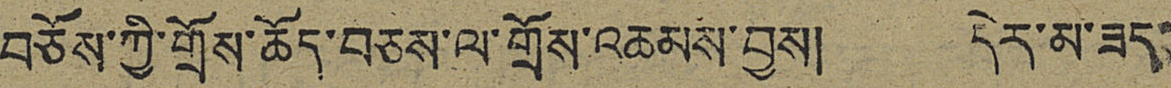བཅོས་ཀྱི་གྲོས་ཆོད་བཅས་ལ་གྲོས་འཆམས་བྱས། དེར་མ་ཟད་
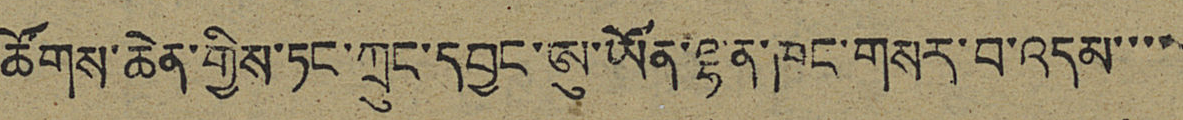ཚོགས་ཆེན་གྱིས་ཏང་ཀྲུང་དབྱང་ཨུ་ཡོན་ལྷན་ཁང་གསར་བ་འདམ་་་་
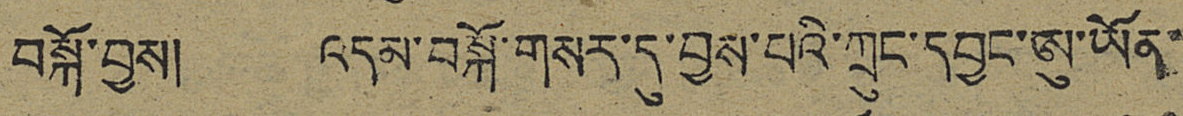བསྐོ་བྱས། འདམ་བསྐོ་གསར་དུ་བྱས་པའི་ཀྲུང་དབྱང་ཨུ་ཡོན་
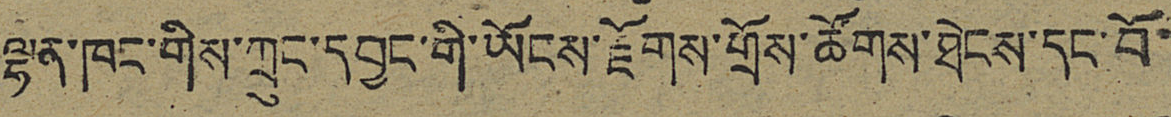ལྷན་ཁང་གིས་ཀྲུང་དབྱང་གི་ཡོངས་རྫོགས་གྲོས་ཚོགས་ཐེངས་དང་བོ་
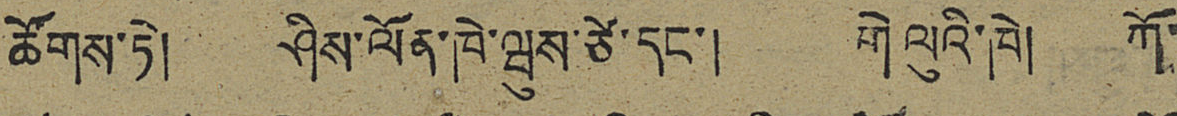ཚོགས་ཏེ། ཤིས་ལོན་ཁེ་ཝུས་ཙེ་དང་། གེ ལུའི་ཁེ། ཀོ་
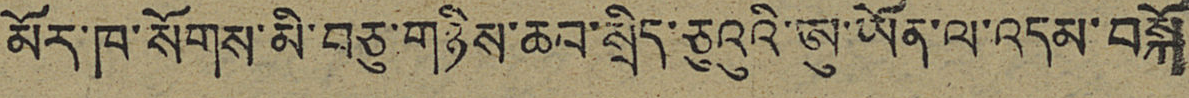མོར་ཁ་སོགས་མི་བཅུ་གཉིས་ཆབ་སྲིད་ཅུའུའི་ཨུ་ཡོན་ལ་འདམ་བསྐོ
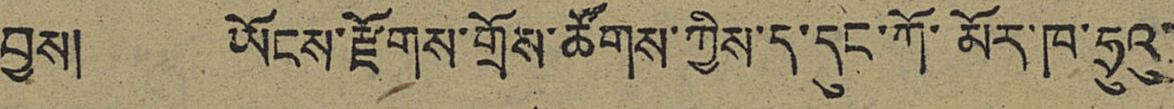བྱས། ཡོངས་རྫོགས་གྲོས་ཚོགས་ཀྱིས་ད་དུང་ཀོ་མོར་ཁ་ཧྲུའུ་
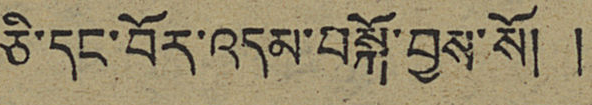ཅི་དང་བོར་འདམ་བསྐོ་བྱས་སོ། །
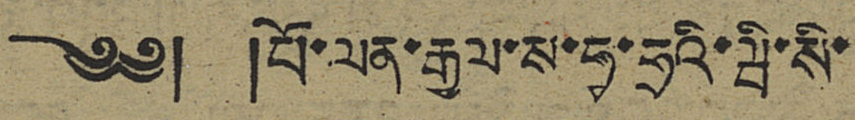༄༅། །པོ་ལན་རྒྱལ་ས་ཧྭ་ཧྲའི་ཝི་སི་
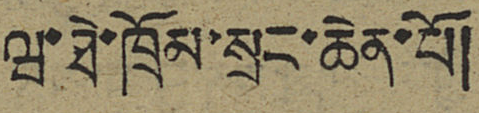ཝ་ཐེ་ཁྲོམ་སྲང་ཆེན་པོ།
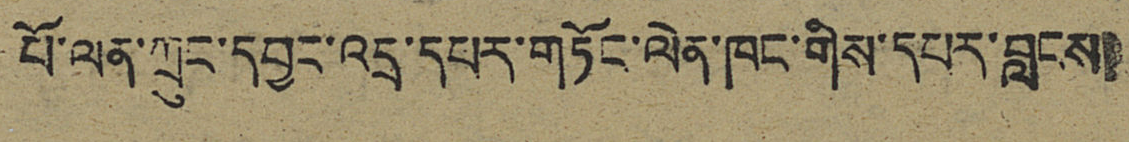པོ་ལན་ཀྲུང་དབྱང་འདྲ་དཔར་གཏོང་ལེན་ཁང་གིས་དཔར་བླངས།
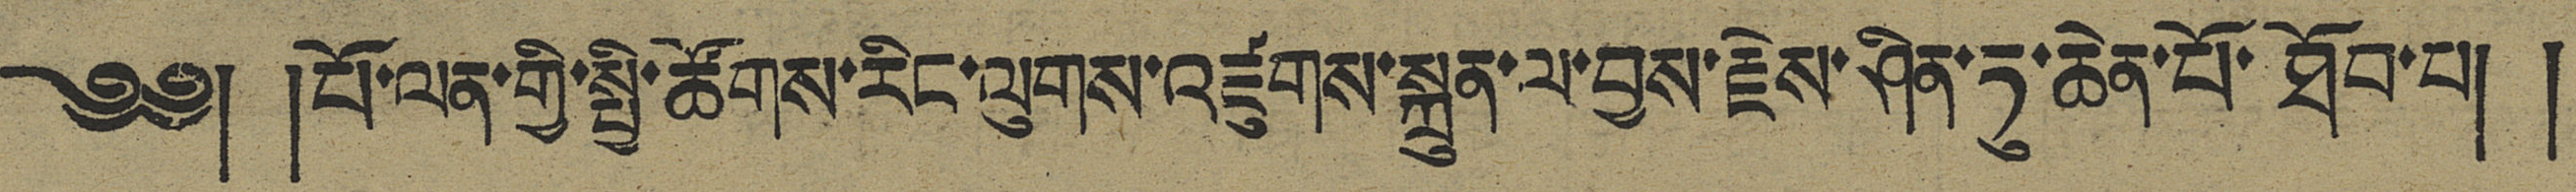༄༅། །པོ་ལན་གྱི་སྤྱི་ཚོགས་རིང་ལུགས་འཛུགས་སྐྲུན་ལ་བྱས་རྗེས་ཤིན་ཏུ་ཆེན་པོ་ཐོབ་པ། །
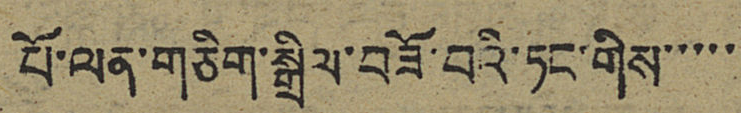པོ་ལན་གཅིག་སྒྲིལ་བཟོ་བའི་ཏང་གིས་་་་་
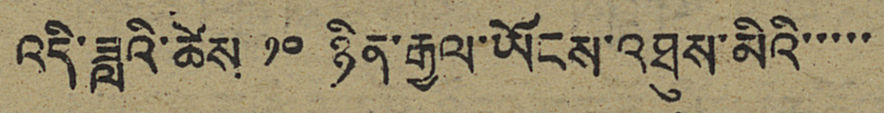འདི་ཟླའི་ཚེས ༡༠ ཉིན་རྒྱལ་ཡོངས་འཐུས་མིའི་་་་་
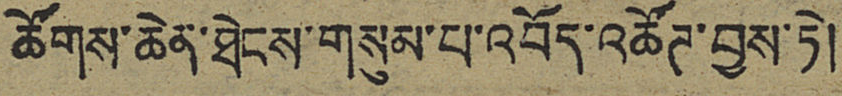ཚོགས་ཆེན་ཐེངས་གསུམ་པ་འབོད་འཚོཊ་བྱས་ཏེ།
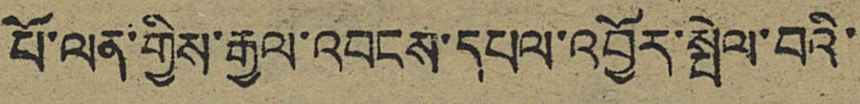པོ་ལན་གྱིས་རྒྱལ་འབངས་དཔལ་འབྱོར་སྤེལ་བའི་
